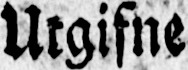Utgifne
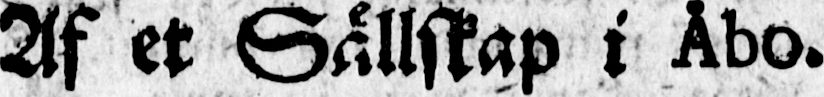Af et Sällskap i Åbo.
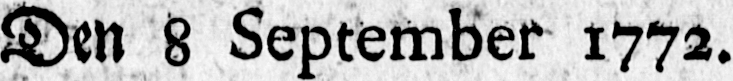Den 8 September 1772.
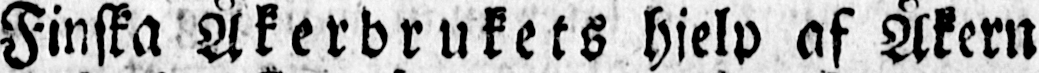Finska Åkerbrukets hjelp af Åkern
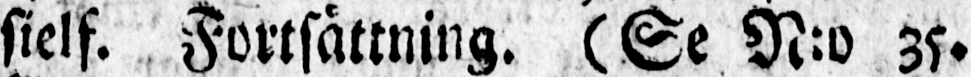sielf. Fortsättning. (Se N:o 35.
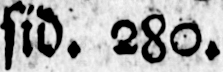sid. 280.
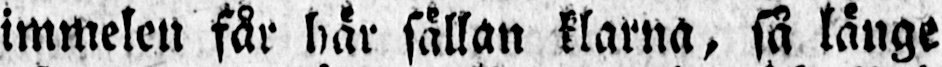Himmelen får här sällan klarna, så länge
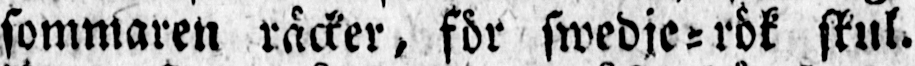sommaren räcker, för swedje-rök skul.
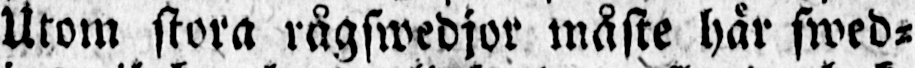Utom stora rågswedjor måste här swed-
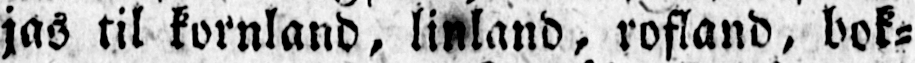jas til kornland, linland, rofland, bok-
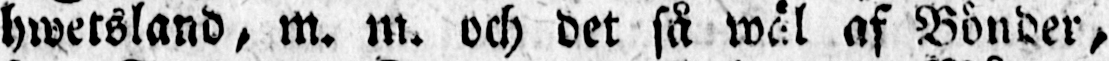hwetsland, m. m. och det så wäl af Bönder,
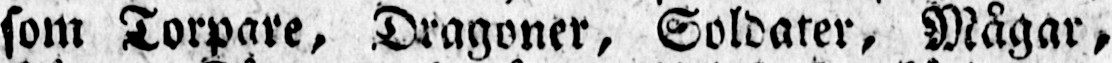som Torpare, Dragoner, Soldater, Mågar,
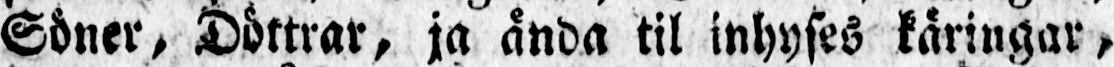Söner, Döttrar, ja ända til inhyses käringar,
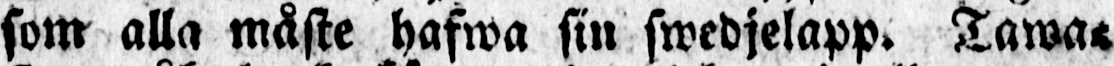som alla måste hafwa sin swedjelapp. Tawa-
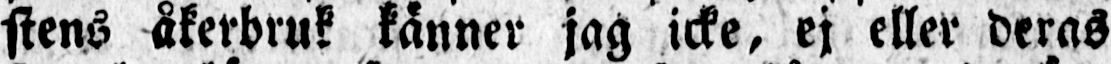stens åkerbruk känner jag icke, ej eller deras
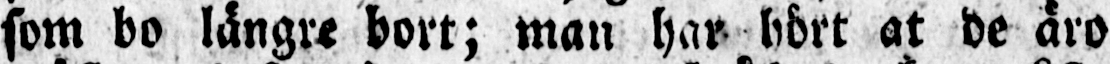som bo längre bort; man har hört at de äro
